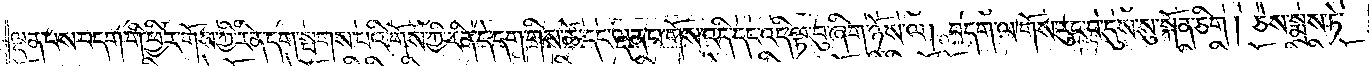ལྡན་པས་བདག་གི་ཕྱིར་གོས་ཀྱི་རིན་དག་སྤགས་པའི་གོས་ཀྱི་རིན་དེ་དག་གིས་ཚེ་དང་ལྡན་པ་གོས་འདི་དང་འདི་ལྟ་བུ་ཞིག་ཉོས་ལ། བདག་ལ་གོས་རུང་བ་དུས་སུ་སྐོན་ཅིག །ཅེས་སྨྲས་ཏེ་
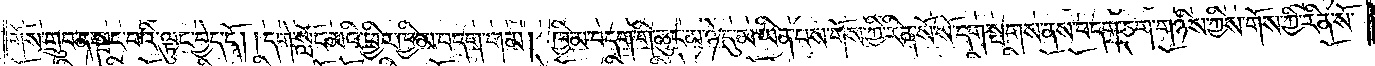གོས་གྲུབ་ན་སྤང་བའི་ལྟུང་བྱེད་དོ། །དགེ་སློང་མའི་ཕྱིར་ཁྱིམ་བདག་གམ། ཁྱིམ་བདག་གི་ཆུང་མ་ཉེ་དུ་མ་ཡིན་པས་གོས་ཀྱི་རིན་སོ་སོ་དག་སྤགས་ནས་བདག་ཅག་གཉིས་ཀྱིས་གོས་ཀྱི་རིན་སོ་
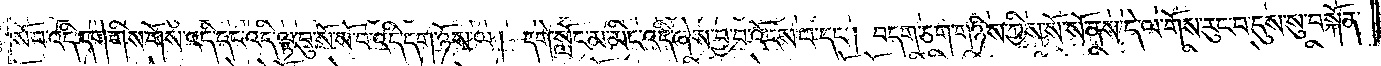སོ་བ་འདི་དག་གིས་གོས་འདི་དང་འདི་ལྟ་བུ་སོ་སོ་བ་འདི་དག་ཉོས་ལ། དགེ་སློང་མ་མིང་འདི་ཞེས་བྱ་བ་འོངས་པ་དང༌། བདག་ཅག་གཉིས་ཀྱིས་སོ་སོ་ནས་དེ་ལ་གོས་རུང་བ་དུས་སུ་བསྐོན་
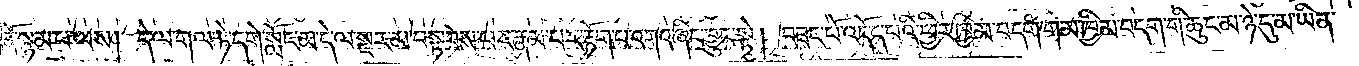ནོ་སྙམ་པ་ལས། དེ་ལ་གལ་ཏེ་དགེ་སློང་མ་དེ་ལ་སྔར་མ་བསྟབས་པར་རྣམ་པར་རྟོག་པ་འགའ་ཞིང་བྱུང་སྟེ། བཟང་པོ་འདོད་པའི་ཕྱིར་ཁྱིམ་བདག་གམ་ཁྱིམ་བདག་གི་ཆུང་མ་ཉེ་དུ་མ་ཡིན་
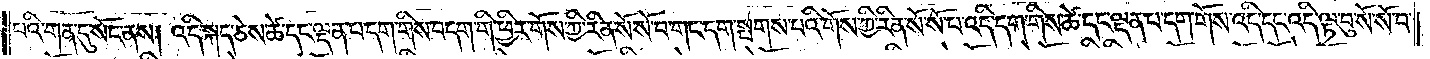པའི་གན་དུ་སོང་ནས། འདི་སྐད་ཅེས་ཚེ་དང་ལྡན་པ་བདག་གིས་བདག་གི་ཕྱིར་གོས་ཀྱི་རིན་སོ་སོ་བ་གང་དག་སྤགས་པའི་གོས་ཀྱི་རིན་སོ་སོ་བ་འདི་དག་གིས་ཚེ་དང་ལྡན་པ་དག་གོས་འདི་དང་འདི་ལྟ་བུ་སོ་སོ་བ་
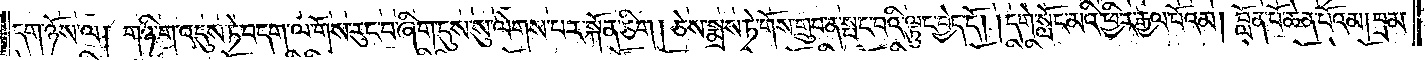དག་ཉོས་ལ། གཉི་ག་འདུས་ཏེ་བདག་ལ་གོས་རུང་བ་ཞིག་དུས་སུ་ལེགས་པར་སྐོན་ཅིག །ཅེས་སྨྲས་ཏེ་གོས་གྲུབ་ན་སྤང་བའི་ལྟུང་བྱེད་དོ། །དགེ་སློང་མའི་ཕྱིར་རྒྱལ་པོའམ། བློན་པོ་ཆེན་པོའམ། བྲམ་
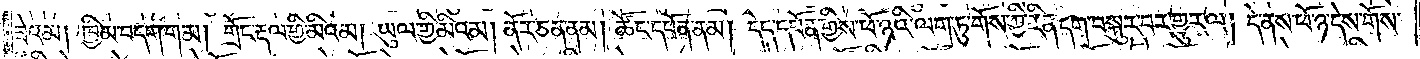ཟེའམ། ཁྱིམ་བདག་གམ། གྲོང་རྡལ་གྱི་མིའམ། ཡུལ་གྱི་མིའམ། ནོར་ཅན་ནམ། ཚོང་དཔོན་ནམ། དེད་དཔོན་གྱིས་ཕོ་ཉའི་ལག་ཏུ་གོས་ཀྱི་རིན་དག་བསྐུར་བར་གྱུར་ལ། དེ་ནས་ཕོ་ཉ་དེས་གོས་
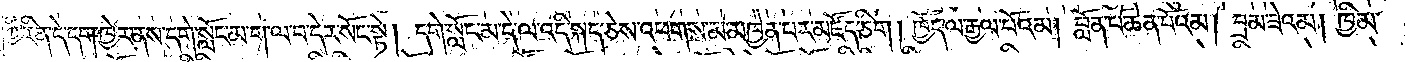ཀྱི་རིན་དེ་དག་ཁྱེར་ནས་དགེ་སློང་མ་ག་ལ་བ་དེར་སོང་སྟེ། དགེ་སློང་མ་དེ་ལ་འདི་སྐད་ཅེས་འཕགས་མ་མཁྱེན་པར་མཛོད་ཅིག ། ཁྱོད་ལ་རྒྱལ་པོའམ། བློན་པོ་ཆེན་པོའམ། བྲམ་ཟེའམ། ཁྱིམ་
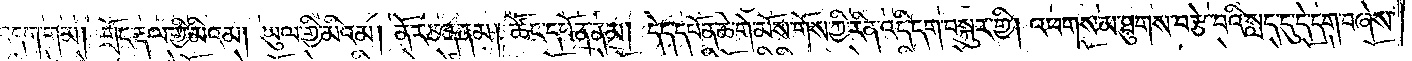བདག་གམ། གྲོང་རྡལ་གྱི་མིའམ། ཡུལ་གྱི་མིའམ། ནོར་ཅན་ནམ། ཚོང་དཔོན་ནམ། དེད་དཔོན་ཆེ་གེ་མོས་གོས་ཀྱི་རིན་འདི་དག་བསྐུར་གྱི། འཕགས་མ་ཐུགས་བརྩེ་བའི་སླད་དུ་དེ་དག་བཞེས་
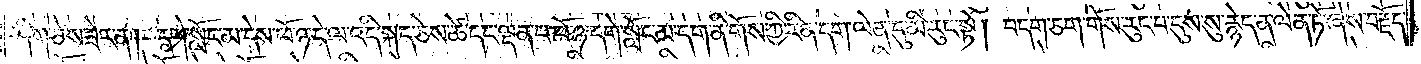ཤིག་ཅེས་ཟེར་ན། དགེ་སློང་མ་དེས་ཕོ་ཉ་དེ་ལ་འདི་སྐད་ཅེས་ཚེ་དང་ལྡན་པ་ཕོ་ཉ་དགེ་སློང་མ་དག་ནི་གོས་ཀྱི་རིན་དག་ལེན་དུ་མི་རུང་སྟེ། བདག་ཅག་གོས་རུང་བ་དུས་སུ་རྙེད་ན་ལེན་ཏོ་ཞེས་བརྗོད་
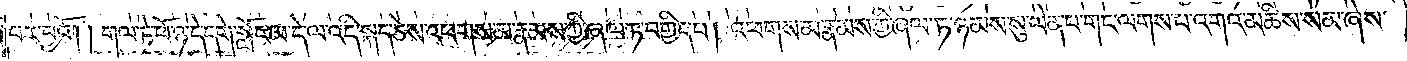བར་བྱའོ། །གལ་ཏེ་ཕོ་ཉ་དེ་དགེ་སློང་མ་དེ་ལ་འདི་སྐད་ཅེས་འཕགས་མ་རྣམས་ཀྱི་ཞལ་ཏ་བགྱིད་པ། འཕགས་མ་རྣམས་ཀྱི་ཞལ་ཏ་ཉམས་སུ་ལེན་པ་གང་ལགས་པ་འགའ་མཆིས་སམ་ཞེས་
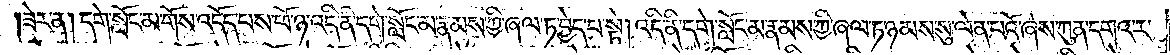ཟེར་ན། དགེ་སློང་མ་གོས་འདོད་པས་ཕོ་ཉ་འདི་ནི་དགེ་སློང་མ་རྣམས་ཀྱི་ཞལ་ཏ་བྱེད་པ་སྟེ། འདི་ནི་དགེ་སློང་མ་རྣམས་ཀྱི་ཞལ་ཏ་ཉམས་སུ་ལེན་པའོ་ཞེས་ཀུན་དགའ་ར་
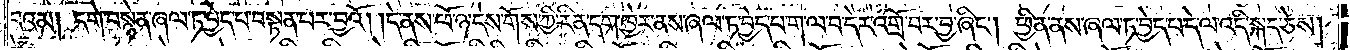བའམ། དགེ་བསྙེན་ཞལ་ཏ་བྱེད་པ་བསྟན་པར་བྱའོ། །དེ་ནས་ཕོ་ཉ་དེས་གོས་ཀྱི་རིན་དག་ཁྱེར་ནས་ཞལ་ཏ་བྱེད་པ་ག་ལ་བ་དེར་འགྲོ་བར་བྱ་ཞིང༌། ཕྱིན་ནས་ཞལ་ཏ་བྱེད་པ་དེ་ལ་འདི་སྐད་ཅེས།
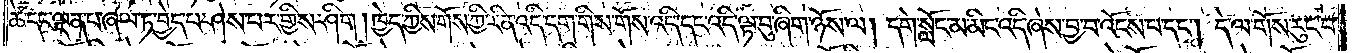ཚེ་དང་ལྡན་པ་ཞལ་ཏ་བྱེད་པ་ཤེས་པར་གྱིས་ཤིག །ཁྱེད་ཀྱིས་གོས་ཀྱི་རིན་འདི་དག་གིས་གོས་འདི་དང་འདི་ལྟ་བུ་ཞིག་ཉོས་ལ། དགེ་སློང་མ་མིང་འདི་ཞེས་བྱ་བ་འོངས་པ་དང༌། དེ་ལ་གོས་རུང་བ་
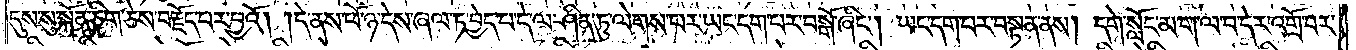དུས་སུ་སྐོན་ཅིག་ཅེས་བརྗོད་པར་བྱའོ། །དེ་ནས་ཕོ་ཉ་དེས་ཞལ་ཏ་བྱེད་པ་དེ་ལ་ཤིན་ཏུ་ལེགས་པར་ཡང་དག་པར་བསྒོ་ཞིང༌། ཡང་དག་པར་བསྟན་ནས། དགེ་སློང་མ་ག་ལ་བ་དེར་འགྲོ་བར་
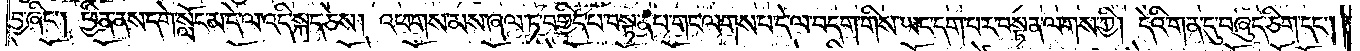བྱ་ཞིང༌། ཕྱིན་ནས་དགེ་སློང་མ་དེ་ལ་འདི་སྐད་ཅེས། འཕགས་མས་ཞལ་ཏ་བགྱིད་པ་བསྟན་པ་གང་ལགས་པ་དེ་ལ་བདག་གིས་ཡང་དག་པར་བསྟན་ལགས་ཀྱི། དེའི་གན་དུ་བཞུད་ཅིག་དང༌།
